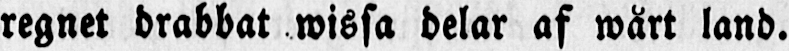regnet drabbat wissa delar af wårt land.
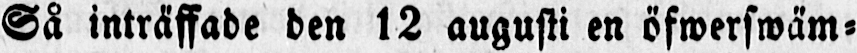Så inträffade den 12 augusti en öfwerswäm-
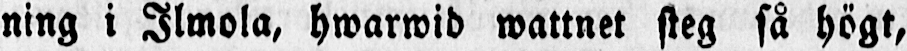ning i Ilmola, hwarwid wattnet steg så högt,
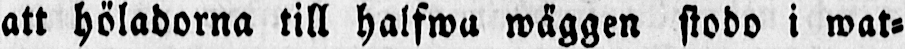att höladorna till halfwa wäggen stodo i wat-
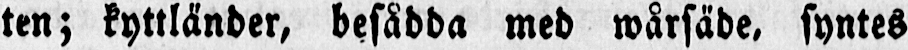ten; kyttländer, besådda med wårsäde, syntes
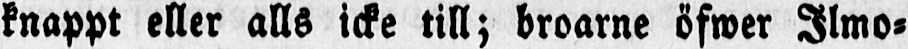knappt eller alls icke till; broarne öfwer Ilmo-
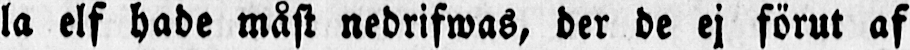la elf hade måst nedrifwas, der de ej förut af
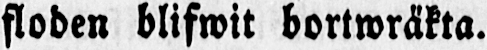floden blifwit bortwräkta.
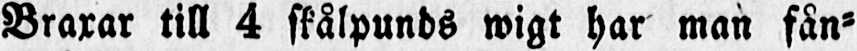Braxar till 4 skålpunds wigt har man fån-
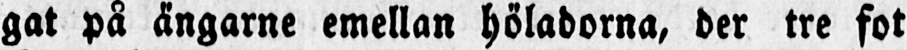gat på ängarne emellan höladorna, der tre fot
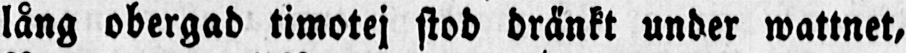lång obergad timotej stod dränkt under wattnet,
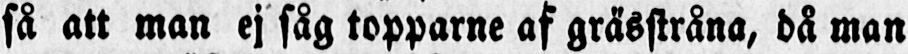så att man ej såg topparne af grässtråna, då man
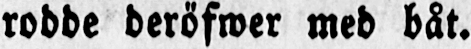rodde deröfwer med båt.
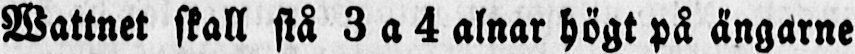Wattnet skall stå 3 a 4 alnar högt på ängarne
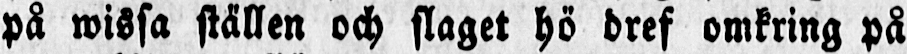på wissa ställen och slaget hö dref omkring på
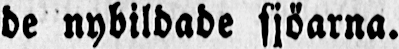de nybildade sjöarna.
